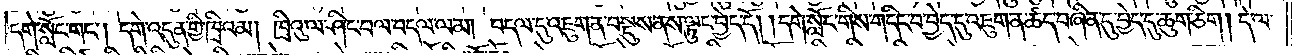དགེ་སློང་གང༌། དགེ་འདུན་གྱི་ཁྲིའམ། ཁྲིའུ་ལ་ཤིང་བལ་བདལ་ལམ། བདལ་དུ་འཇུག་ན་བསྡུས་ནས་ལྟུང་བྱེད་དོ། །དགེ་སློང་གིས་གདིང་བ་བྱེད་དུ་འཇུག་ན་ཚད་བཞིན་དུ་བྱེད་དུ་ཆུག་ཅིག། དེ་ལ་
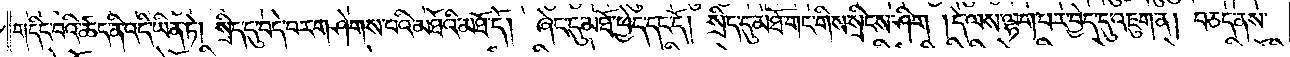གདིང་བའི་ཚད་ནི་འདི་ཡིན་ཏེ། སྲིད་དུ་བདེ་བར་གཤེགས་པའི་མཐོའི་མཐོ་དོ། ཞེང་དུ་མཐོ་ཕྱེད་དང་དོ། སྲིད་དུ་མཐོ་གང་གིས་སྲིངས་ཤིག །དེ་ལས་ལྷག་པར་བྱེད་དུ་འཇུག་ན། བཅད་ནས་
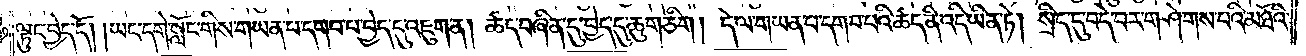ལྟུང་བྱེད་དོ། །ཡང་དགེ་སློང་གིས་གཡན་པ་དགབ་པ་བྱེད་དུ་འཇུག་ན། ཚད་བཞིན་དུ་བྱེད་དུ་ཆུག་ཅིག། དེ་ལ་གཡན་པ་དགབ་པའི་ཚད་ནི་འདི་ཡིན་ཏེ། སྲིད་དུ་བདེ་བར་གཤེགས་པའི་མཐོའི་
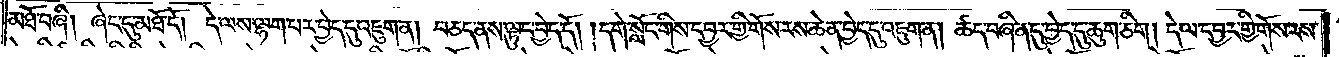མཐོ་བཞི། ཞེང་དུ་མཐོ་དོ། དེ་ལས་ལྷག་པར་བྱེད་དུ་འཇུག་ན། བཅད་ནས་ལྟུང་བྱེད་དོ། །དགེ་སློང་གིས་དབྱར་གྱི་གོས་རས་ཆེན་བྱེད་དུ་འཇུག་ན། ཚད་བཞིན་དུ་བྱེད་དུ་ཆུག་ཅིག། དེ་ལ་དབྱར་གྱི་གོས་རས་
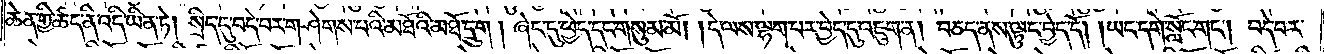ཆེན་གྱི་ཚད་ནི་འདི་ཡིན་ཏེ། སྲིད་དུ་བདེ་བར་གཤེགས་པའི་མཐོའི་མཐོ་དྲུག། ཞེང་དུ་ཕྱེད་དང་གསུམ་མོ། །དེ་ལས་ལྷག་པར་བྱེད་དུ་འཇུག་ན། བཅད་ནས་ལྟུང་བྱེད་དོ། །ཡང་དགེ་སློང་གང༌། བདེ་བར་
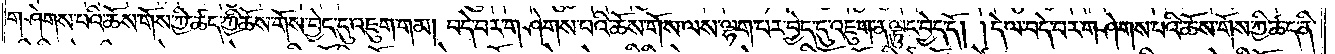གཤེགས་པའི་ཆོས་གོས་ཀྱི་ཚད་ཀྱི་ཆོས་གོས་བྱེད་དུ་འཇུག་གམ། བདེ་བར་གཤེགས་པའི་ཆོས་གོས་ལས་ལྷག་པར་བྱེད་དུ་འཇུག་ན་ལྟུང་བྱེད་དོ། །དེ་ལ་བདེ་བར་གཤེགས་པའི་ཆོས་གོས་ཀྱི་ཚད་ནི་
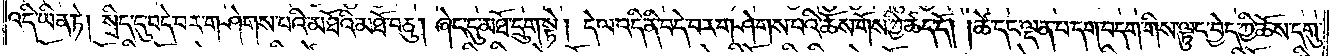འདི་ཡིན་ཏེ། སྲིད་དུ་བདེ་བར་གཤེགས་པའི་མཐོའི་མཐོ་བཅུ། ཞེང་དུ་མཐོ་དྲུག་སྟེ། དེ་ལ་འདི་ནི་བདེ་བར་གཤེགས་པའི་ཆོས་གོས་ཀྱི་ཚད་དོ། །ཚེ་དང་ལྡན་པ་དག་བདག་གིས་ལྟུང་བྱེད་ཀྱི་ཆོས་དགུ་
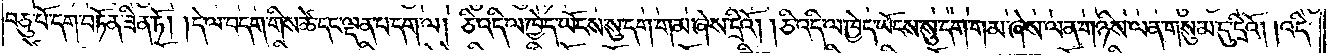བཅུ་པོ་དག་བཏོན་ཟིན་ཏོ། །དེ་ལ་བདག་གིས་ཚེ་དང་ལྡན་པ་དག་ལ། ཅི་འདི་ལ་ཁྱེད་ཡོངས་སུ་དག་གམ་ཞེས་དྲིའོ། །ཅི་འདི་ལ་ཁྱེད་ཡོངས་སུ་དག་གམ་ཞེས་ལན་གཉིས་ལན་གསུམ་དུ་དྲིའོ། །འདི་
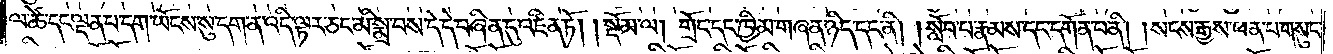ལ་ཚེ་དང་ལྡན་པ་དག་ཡོངས་སུ་དག་ན་འདི་ལྟར་ཅང་མི་སྨྲ་བས་དེ་དེ་བཞིན་དུ་འཛིན་ཏོ།    །སྡོམ་ལ། གྲོང་དང་ཁྱིམ་གཞན་ཉིད་དང་ནི། །སློབ་པ་རྣམས་དང་དགོན་པ་ནི། །སངས་རྒྱས་ཕན་པ་གསུང་
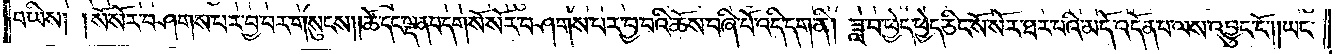བ་ཡིས། །སོ་སོར་བཤགས་པར་བྱ་བར་གསུངས། །ཚེ་དང་ལྡན་པ་དག་སོ་སོར་བཤགས་པར་བྱ་བའི་ཆོས་བཞི་པོ་འདི་དག་ནི། ཟླ་བ་ཕྱེད་ཕྱེད་ཅིང་སོ་སོར་ཐར་པའི་མདོ་འདོན་པ་ལས་འབྱུང་ངོ༌། །ཡང་
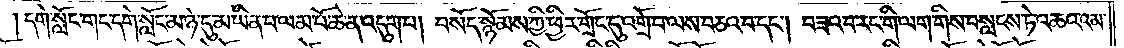དགེ་སློང་གང་དགེ་སློང་མ་ཉེ་དུ་མ་ཡིན་པ་ལམ་པོ་ཆེ་ན་འདུག་པ། བསོད་སྙོམས་ཀྱི་ཕྱིར་གྲོང་དུ་འགྲོ་བ་ལས་བཅའ་བ་དང༌། བཟའ་བ་རང་གི་ལག་གིས་བསླངས་ཏེ་འཆའ་འམ་
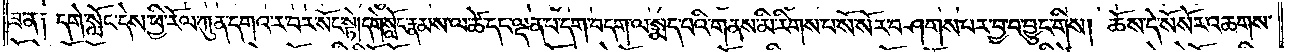ཟ་ན༑ དགེ་སློང་དེས་ཕྱི་རོལ་ཀུན་དགའ་ར་བར་སོང་སྟེ།དགེ་སློང་རྣམས་ལ་ཚེ་དང་ལྡན་པ་དག་བདག་ལ་སྨད་པའི་གནས་མི་རིགས་པ་སོ་སོར་བཤགས་པར་བྱ་བ་བྱུང་གིས། ཆོས་དེ་སོ་སོར་འཆགས་
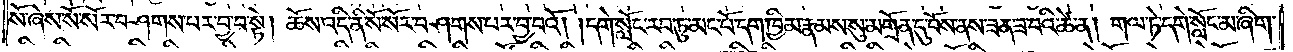སོ་ཞེས་སོ་སོར་བཤགས་པར་བྱ་བ་སྟེ། ཆོས་འདི་ནི་སོ་སོར་བཤགས་པར་བྱ་བའོ། །དགེ་སློང་རབ་ཏུ་མང་པོ་དག་ཁྱིམ་རྣམས་སུ་མགྲོན་དུ་བོས་ནས་ཟན་ཟ་བའི་ཚེ་ན། གལ་ཏེ་དགེ་སློང་མ་ཞིག་
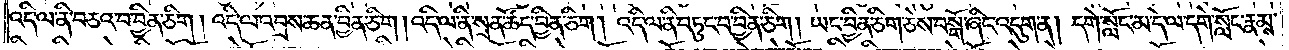འདི་ལ་ནི་བཅའ་བ་བྱིན་ཅིག། འདི་ལ་འབྲས་ཆན་བྱིན་ཅིག། འདི་ལ་ནི་སྲན་ཚོད་བྱིན་ཅིག། འདི་ལ་ནི་བཏུང་བ་བྱིན་ཅིག། ཡང་བྱིན་ཅིག་ཅེས་བསྒོ་ཞིང་འདུག་ན། དགེ་སློང་མ་དེ་ལ་དགེ་སློང་རྣམས་
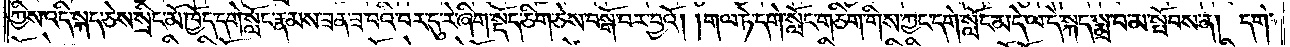ཀྱིས་འདི་སྐད་ཅེས་སྲིང་མོ་ཁྱོད་དགེ་སློང་རྣམས་ཟན་ཟ་བའི་བར་དུ་རེ་ཞིག་སྡོད་ཅིག་ཅེས་བསྒོ་བར་བྱའོ། །གལ་ཏེ་དགེ་སློང་གཅིག་གིས་ཀྱང་དགེ་སློང་མ་དེ་ལ་དེ་སྐད་སྨྲ་བ་མ་སྤོབས་ན། དགེ་
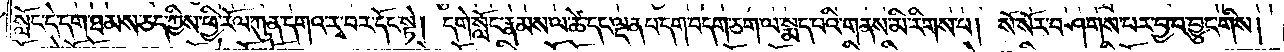སློང་དེ་དག་ཐམས་ཅད་ཀྱིས་ཕྱི་རོལ་ཀུན་དགའ་རྭ་བར་དོང་སྟེ། དགེ་སློང་རྣམས་ལ་ཚེ་དང་ལྡན་པ་དག་བདག་ཅག་ལ་སྨད་པའི་གནས་མི་རིགས་པ། སོ་སོར་བཤགས་པར་བྱ་བ་བྱུང་གིས།
